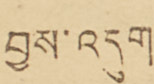བྱས་འདུག
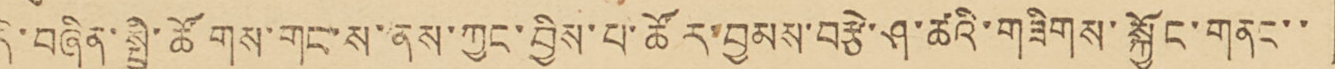དེ་བཞིན་སྤྱི་ཚོགས་གང་ས་ནས་ཀྱང་བྱིས་པ་ཚོར་བྱམས་བརྩེ་ཤ་ཚའི་གཟིགས་སྐྱོང་གནང་་
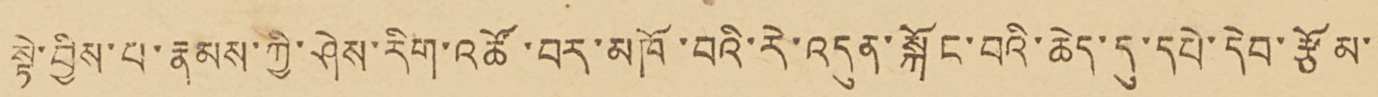སྟེ་བྱིས་པ་རྣམས་ཀྱི་ཤེས་རིག་འཚོ་བར་མཁོ་བའི་རེ་འདུན་སྐོང་བའི་ཆེད་དུ་དཔེ་དེབ་རྩོམ་་
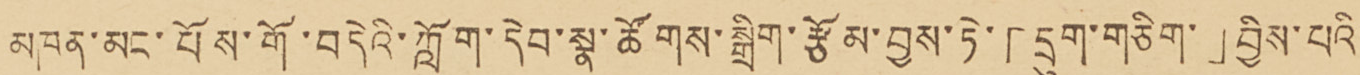མཁན་མང་པོས་གོ་བདེའི་ཀློག་དེབ་སྣ་ཚོགས་སྒྲིག་རྩོམ་བྱས་ཏེ་「དྲུག་གཅིག་」བྱིས་པའི་་
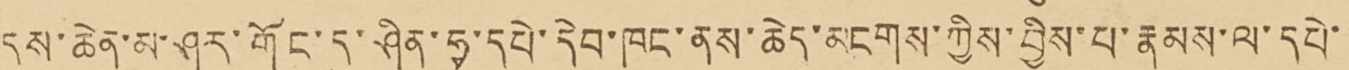དུས་ཆེན་མ་ཤར་གོང་དུ་ཤིན་ཧྭ་དཔེ་དེབ་ཁང་ནས་ཆེད་མངགས་ཀྱིས་བྱིས་པ་རྣམས་ལ་དཔེ་་་
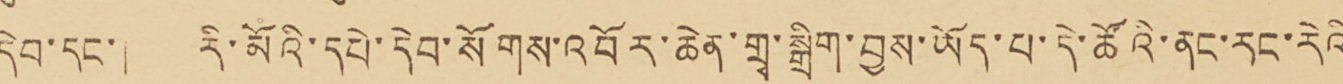དེབ་དང་། རི་མོའི་དཔེ་དེབ་སོགས་འབོར་ཆེན་གྲྭ་སྒྲིག་བྱས་ཡོད་པ་དེ་ཚོའི་ནང་རང་རེའི་
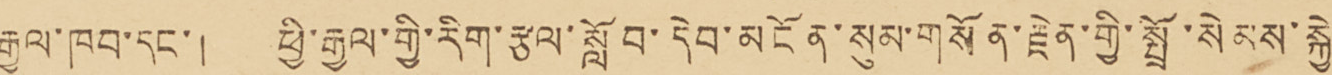རྒྱལ་ཁབ་དང་། ཕྱི་རྒྱལ་རིག་རྩལ་སློབ་དེབ་མངོན་སུམ་གསོན་རྗེན་གྱི་སྤྲོ་སེམས་སྐྱེ་་་
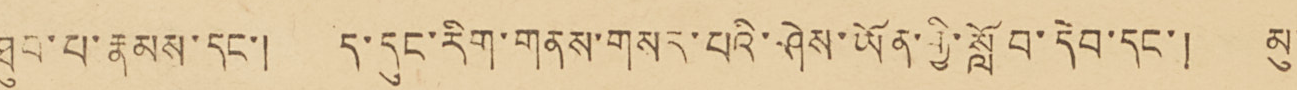ཐུབ་པ་རྣམས་དང་། ད་དུང་རིག་གནས་གསར་པའི་ཤེས་ཡོན་གྱི་སློབ་དེབ་དང་། མུ་་་་་
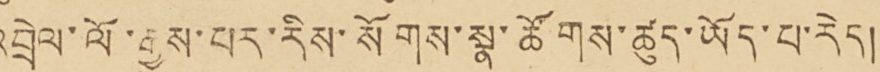འབྲེལ་ལོ་རྒྱུས་པར་རིས་སོགས་སྣ་ཚོགས་ཚུད་ཡོད་པ་རེད།
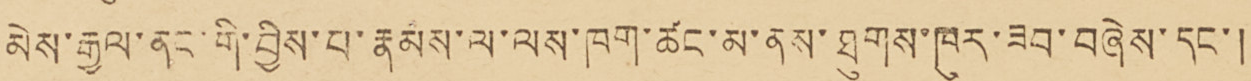མེས་རྒྱལ་ནང་གི་བྱིས་པ་རྣམས་ལ་ལས་ཁག་ཚང་མ་ནས་ཐུགས་ཁུར་ཟབ་བཞེས་དང་།
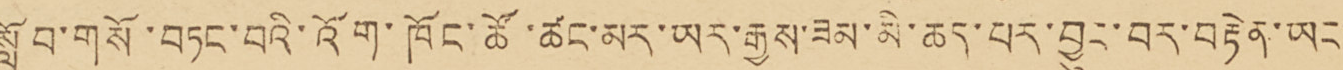སློབ་གསོ་བཏང་བའི་འོག་ཁོང་ཚོ་ཚང་མར་ཡར་རྒྱས་ཟམ་མི་ཆད་པར་བྱུང་བར་བརྟེན་ཡང་་
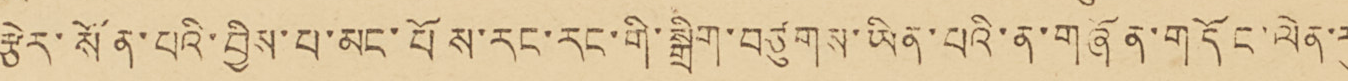རྩེར་སོན་པའི་བྱིས་པ་མང་པོས་རང་རང་གི་སྒྲིག་བཙུགས་ཡིན་པའི་ན་གཞོན་གདོང་ལེན་རུ་
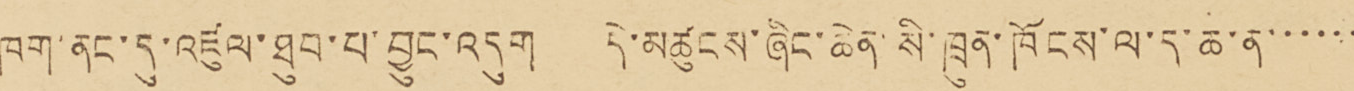ཁག་ནང་དུ་འཛུལ་ཐུབ་པ་བྱུང་འདུག དེ་མཚུངས་ཞིང་ཆེན་སི་ཁྲུན་ཁོངས་ལ་ད་ཆ་ན་་་་་་་
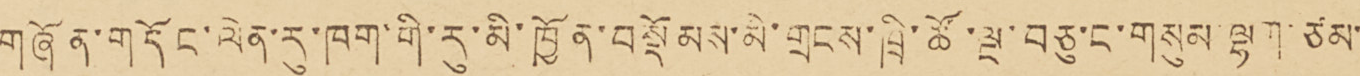གཞོན་གདོང་ལེན་རུ་ཁག་གི་རུ་མི་ཁྱོན་བསྡོམས་མི་གྲངས་ཁྲི་ཚོ་ལྔ་བཅུ་ང་གསུམ་ལྷག་ཙམ་་
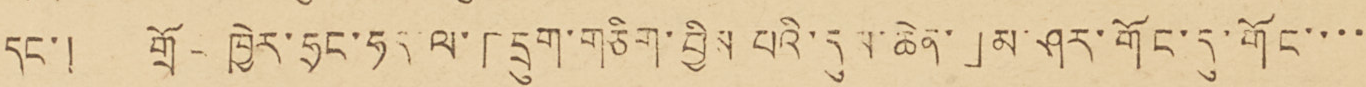དང་། གྲོང་ཁྱེར་ཧྲང་ཧད་ལ་「དྲུག་གཅིག་བྱིས་པའི་དུས་ཆེན་」མ་ཤར་གོང་དུ་གོང་་་་་
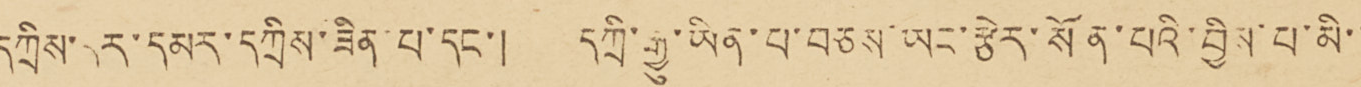དཀྲིས་དར་དམར་དཀྲིས་ཟིན་པ་དང་། དཀྲི་རྒྱུ་ཡིན་པ་བཅས་ཡང་རྩེར་སོན་པའི་བྱིས་པ་མི་་
